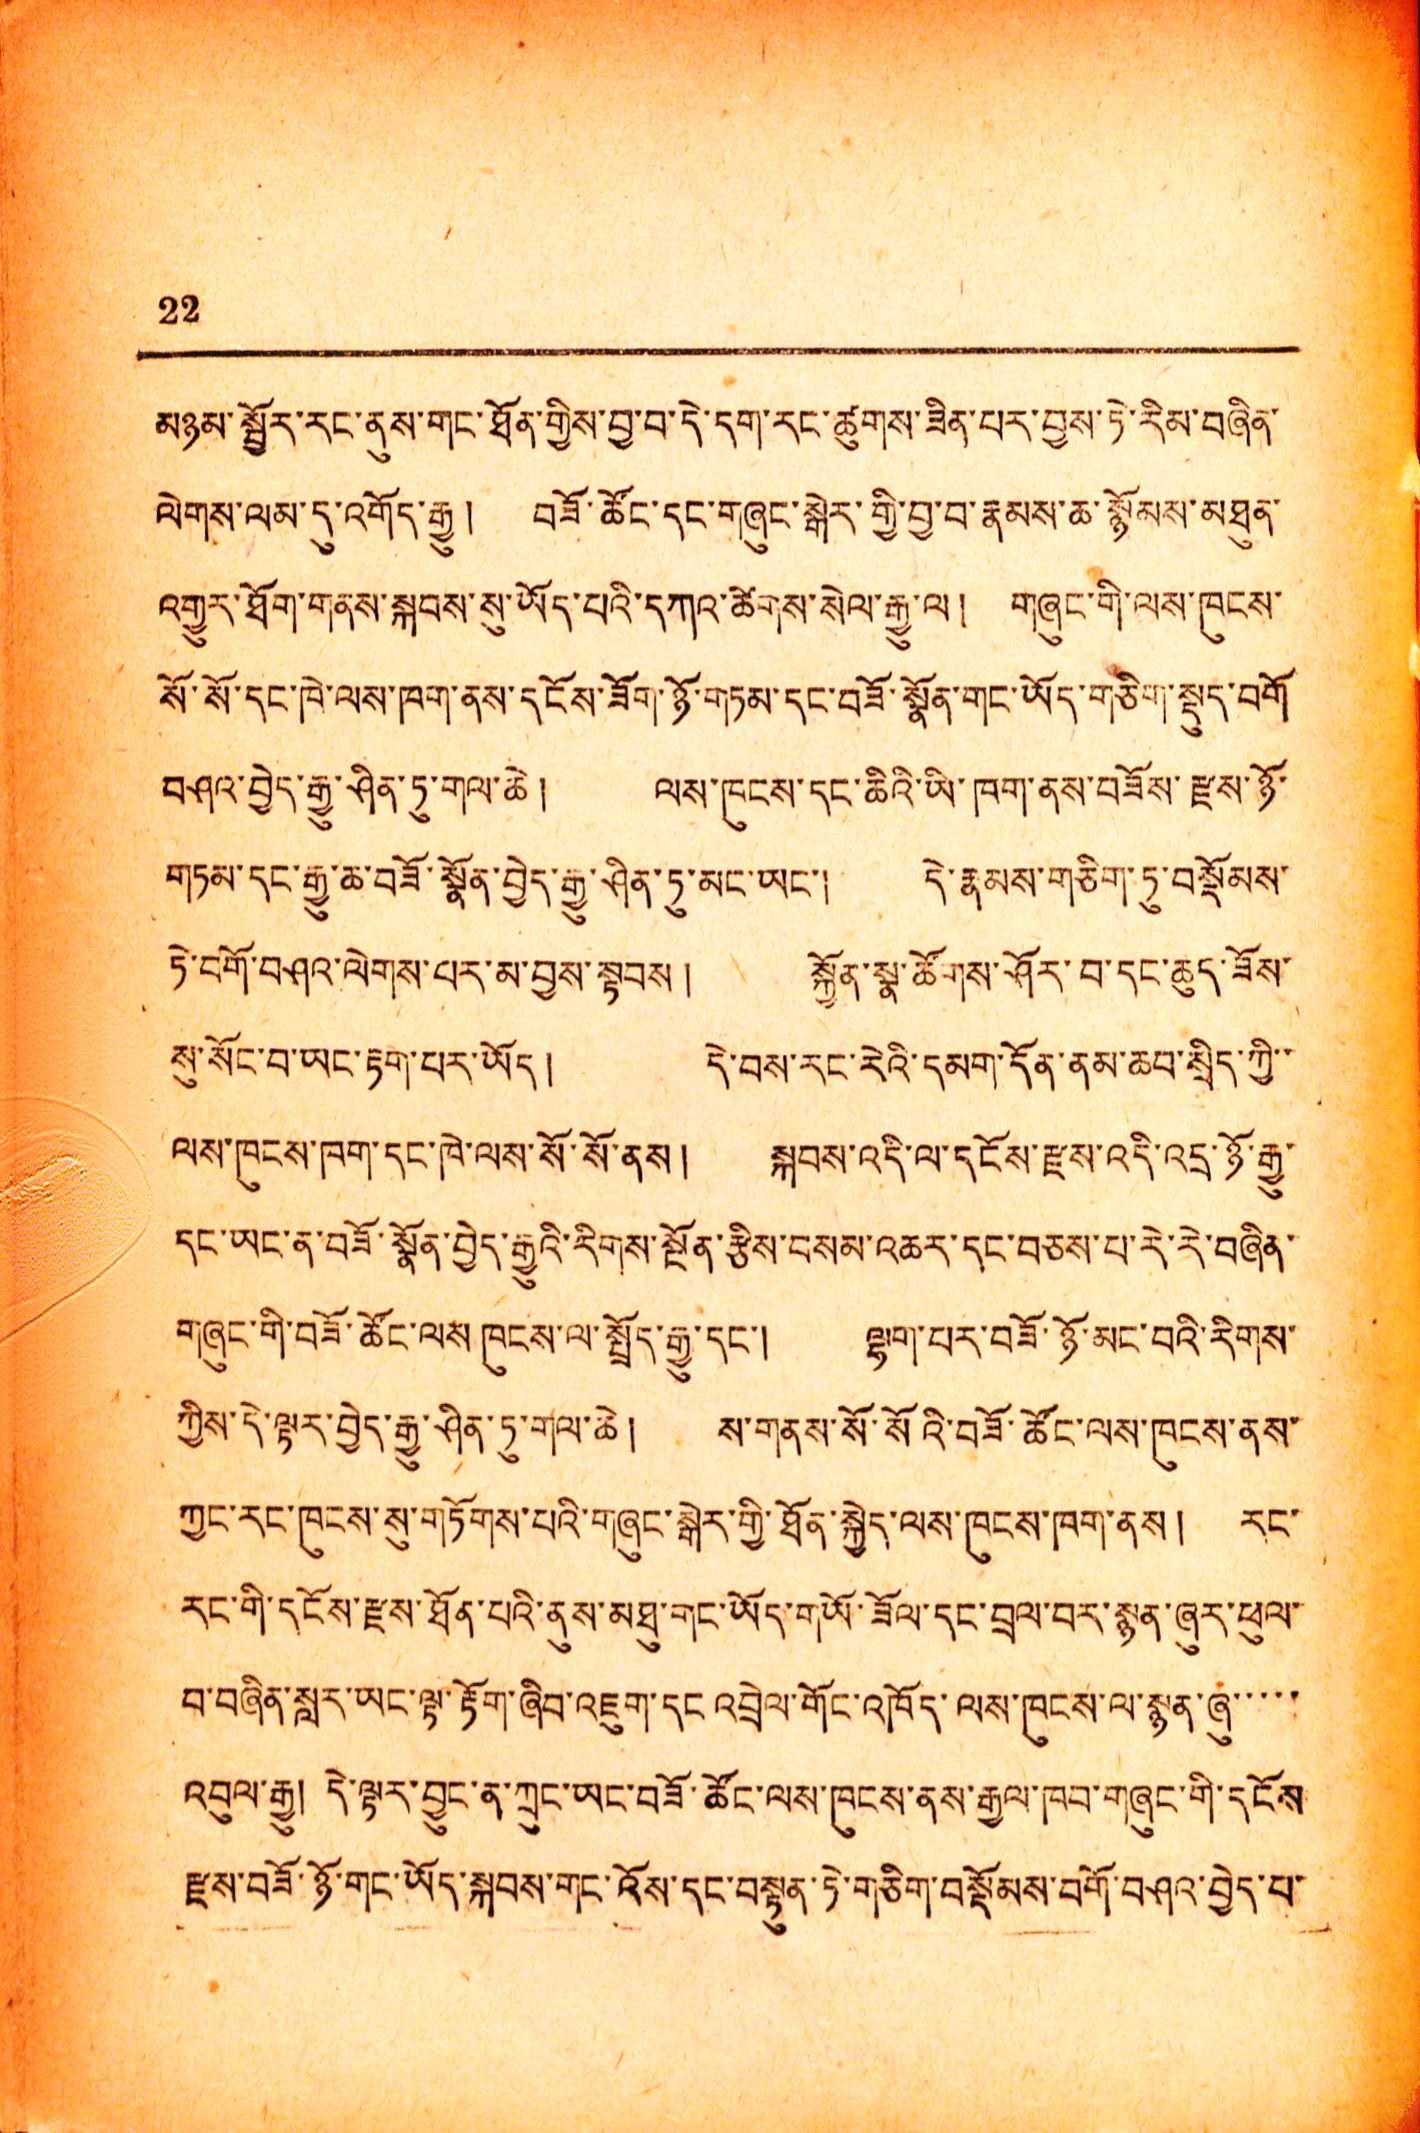22
མཉམ་སྦྱོར་རང་ནུས་གང་ཐོན་གྱིས་བྱ་བ་དེ་དག་རང་ཚུགས་ཟིན་པར་བྱས་ཏེ་རིམ་བཞིན་
ལེགས་ལམ་དུ་འགོད་རྒྱུ ། བཟོ་ཚོང་དང་གཞུང་སྒེར་གྱི་བྱ་བ་རྣམས་ཆ་སྙོམས་མཐུན་
འགྱུར་ཐོག་གནས་སྐབས་སུ་ཡོད་པའི་དཀའ་ཚེགས་སེལ་རྒྱུ་ལ ། གཞུང་གི་ལས་ཁུངས་
སོ་སོ་དང་ཁེ་ལས་ཁག་ནས་དངོས་ཟོག་ཉོ་གཏམ་དང་བཟོ་སྣོན་གང་ཡོད་གཅིག་སྡུད་བགོ
བཤའ་བྱེད་རྒྱུ་ཤིན་ཏུ་གལ་ཆེ ། ལས་ཁུངས་དང་ཆིའི་ཡི་ཁག་ནས་བཟོས་རྫས་ཉོ་
གཏམ་དང་རྒྱུ་ཆ་བཟོ་སྣོན་བྱེད་རྒྱུ་ཤིན་ཏུ་མང་ཡང་། དེ་རྣམས་གཅིག་ཏུ་བསྡོམས་
ཏེ་བགོ་བཤའ་ལེགས་པར་མ་བྱས་སྟབས ། སྐྱོན་སྣ་ཚོགས་ཤོར་བ་དང་ཆུད་ཟོས་
སུ་སོང་བ་ཡང་རྟག་པར་ཡོད། དེ་བས་རང་རེའི་དམག་དོན་ནམ་ཆབ་སྲིད་ཀྱི་་
ལས་ཁུངས་ཁག་དང་ཁེ་ལས་སོ་སོ་ནས ། སྐབས་འདི་ལ་དངོས་རྫས་འདི་འདྲ་ཉོ་རྒྱུ་
དང་ཡང་ན་བཟོ་སྣོན་བྱེད་རྒྱུའི་རིགས་སྔོན་རྩིས་བསམ་འཆར་དང་བཅས་པ་རེ་རེ་བཞིན་
གཞུང་གི་བཟོ་ཚོང་ལས་ཁུངས་ལ་སྤྲོད་རྒྱུ་དང་། ལྷག་པར་བཟོ་ཉོ་མང་བའི་རིགས་
ཀྱིས་དེ་ལྟར་བྱེད་རྒྱུ་ཤིན་ཏུ་གལ་ཆེ། ས་གནས་སོ་སོའི་བཟོ་ཚོང་ལས་ཁུངས་ནས་
ཀྱང་རང་ཁུང་སུ་གཏོགས་པའི་གཞུང་སྒེར་གྱི་ཐོན་སྐྱེད་ལས་ཁུངས་ཁག་ནས ། རང་
རང་གི་དངོས་རྫས་ཐོན་པའི་ནུས་མཐུ་གང་ཡོད་གཡོ་ཟོལ་དང་བྲལ་བར་སྙན་ཞུར་ཕུལ་
བ་བཞིན་སླར་ཡང་ལྟ་རྟོག་ཞིབ་འཇུག་དང འབྲེལ་གོང་འཁོད་ལས་ཁུངས་ལ་སྙན་ཞུ་་་་་
འབུལ་རྒྱུ། དེ་ལྟར་བྱུང་ན་ཀྲུང་ཡང་བཟོ་ཚོང་ལས་ཁུངས་ནས་རྒྱལ་ཁབ་གཞུང་གི་དངོས
རྫས་བཟོ་ཉོ་གང་ཡོད་སྐབས་གང་འོས་དང་བསྟུན་ཏེ་གཅིག་བསྡོམས་བགོ་བཤའ་བྱེད་བ་
